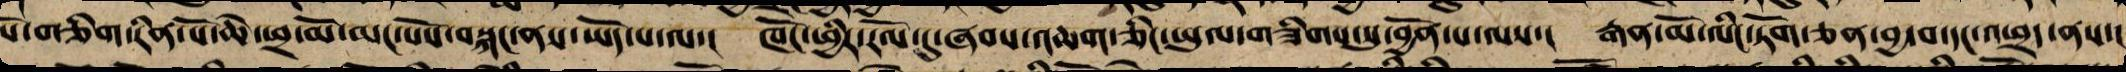པོ་གཅིག་རིན་པོ་ཆེ་ཕྲ་མོ་མང་པོས་བསྐང་ནས་ཡོད་པ་ལ་། ཁོང་ཕྱི་རོལ་དུ་ཞབས་འཆག་ཅིང་ཡུལ་གཟིགས་སུ་བྱོན་པ་ལས་། རྒན་མོ་ལིང་ཏོག་ཅན་བྱ་བ་དང་འཕྲད་ནས་།
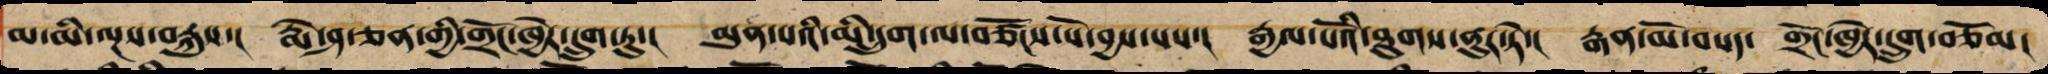མ་མི་ལྔས་བརྐུས་། སྨེ་ཤ་ཅན་གྱི་གྲོང་ཁྱེར་དྲུག་ཏུ་། མུན་པའི་མི་དྲུག་ལ་བཙོངས་སོ་བྱས་པས་། རྒྱལ་པོ་ཐུགས་ནུར་ཏེ་། རྒན་མོ་བསད་ གྲོང་ཁྱེར་དྲུག་བཅོམ།
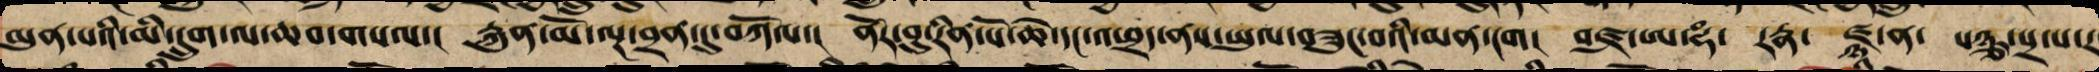མུན་པའི་མི་དྲུག་ལ་ཆབ་གསལ་། རྐུན་མོ་ལྔ་བྲན་དུ་བཀོལ་། ནོར་བུ་རིན་པོ་ཆེ་དང་འཕྲད་ནས་ཡུལ་བཟུང་བའི་མན་ངག། བཛྲ་ཨ་ཧཾ་ རཏྞ་ ཛྙཱ་ན་ པཉྩ་པྲ་པ་ར་
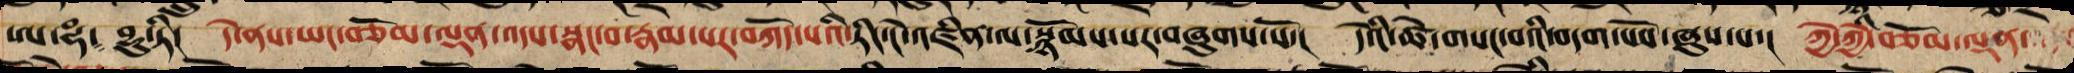ཨ་ཧཾ༴ བྷུ་ཏི། དེ་ནས་ཡང་བཅོམ་ལྡན་འདས་སྣང་བ་རྣམ་པར་བཀོད་པའི་ཏིང་ངེ་འཛིན་ལ་སྙོམས་པར་ཞུགས་སོ་། དེའི་ཚེ་གསང་བའི་བདག་པོས་ཞུས་པ་། ཀྱེ་ཀྱེ་བཅོམ་ལྡན་
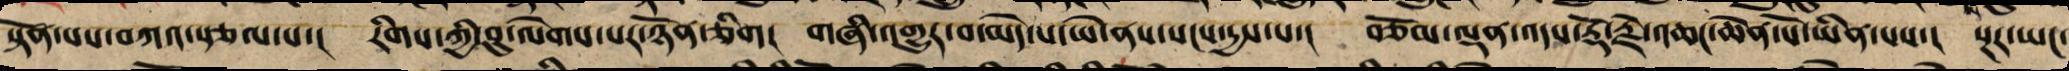སྟོན་པས་བཀའ་སྩལ་པ་། རིགས་ཀྱི་བུ་ལེགས་པར་ཉོན་ཅིག། གཞི་འགྱུར་བ་མེད་པ་ཡེ་ནས་སངས་དྱས་པ་། བཅོམ་ལྡན་འདས་རྡོ་རྗེ་འཆང་ཆེན་པོ་ཡིན་པས་། སྔར་ཡང་
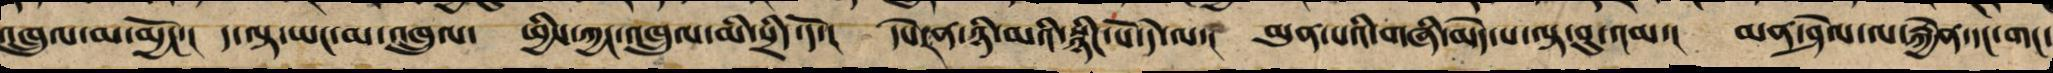འཁྲུལ་མ་མྱོང་། ད་ལྟ་ཡང་མ་འཁྲུལ་ ཕྱིས་ཀྱང་འཁྲུལ་མི་སྲིད་དོ་། དཔེར་ན་ཉི་མའི་སྙིང་པོ་དེ་ལ་། མུན་པའི་གཞི་མེད་པ་ལྟ་བུ་འམ་། མན་ཤེལ་ལ་རྐྱེན་དང་གང་
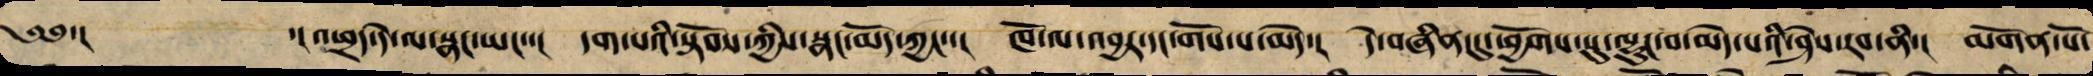༄༅་། ་། འཕྲད་དེ་ལ་སྣང་ཡང་་། དག་པའི་སྟོབས་ཀྱིས་སྣང་མོད་ཀྱང་་། ཁོ་ལ་འབྱར་དང་གོས་པ་མེད་། དེ་བཞིན་དུ་ཕྱོགས་སུ་ལྷུང་བ་མེད་པའི་ཤེས་རབ་ནི་། མགོན་པོ་
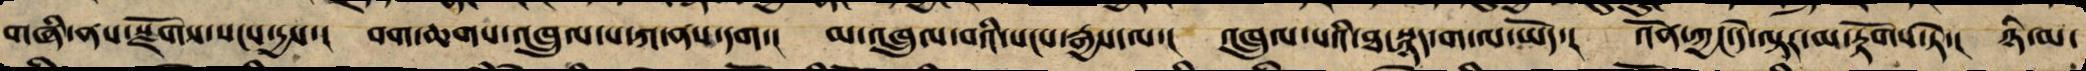གཞི་ནས་སྫོགས་སངས་དྱས་། བག་ཆགས་འཁྲུལ་པ་ཀ་ནས་དག། མ་འཁྲུལ་བའི་སངས་རྒྱས་ལ་། འཁྲུལ་པའི་ཐ་སྙད་ག་ལ་ཡོད་། འོན་ཀྱང་དེ་ལྟར་མ་རྟོགས་ཏེ་། ཉི་མ་
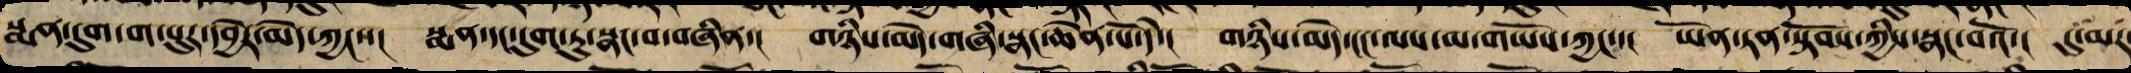སྨན་དུག་ག་བུར་དབྱེར་མེད་ཀྱང་་། སྨན་དང་དུག་ཏུ་སྣང་བ་བཞིན་། གཉིས་མེད་གཞི་སྣང་ཆེན་པོ་དེ་། གཉིས་མེད་ངང་ལས་མ་གཡོས་ཀྱང་་། ཡོན་ཏན་སྟོབས་ཀྱིས་སྣང་བའོ་། དུ་མར
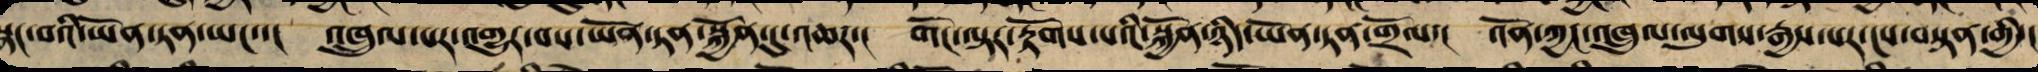སྣང་བའི་ཡོན་ཏན་ལ་། འཁྲུལ་པར་འགྱུར་བས་ཡོན་ཏན་སྐྱོན་དུ་འཆར་། གོང་ལྟར་རྟོགས་པས་སྐྱོན་ཉིད་ཡོན་ཏན་གྲོལ་། འོན་ཀྱང་འཁྲུལ་ལུགས་རྒྱས་པར་ངས་བསྟན་གྱི་།
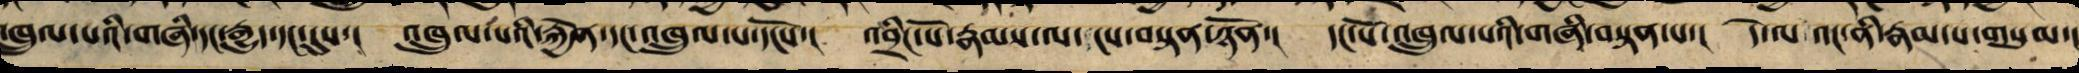འཁྲུལ་པའི་གཞི་དང་རྒྱུད་དང་དུས་། འཁྲུལ་པའི་རྐྱེན་དང་འཁྲུལ་པ་དངོས་། འབྲིང་པོ་རྣམས་ལ་ངས་བསྟན་ཉོན་། དང་པོ་འཁྲུལ་པའི་གཞི་བསྟན་པ་། དེ་ལ འང་ནི་རྣམ་པ་གསུམ་།
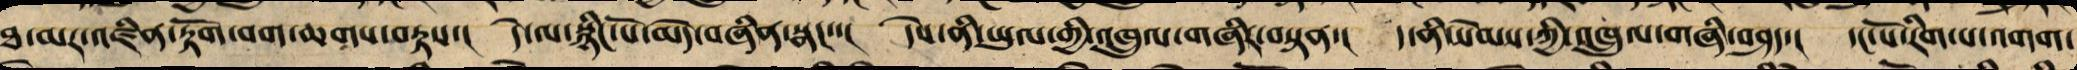ཐ་མར་འཛིན་རྟོག་བག་ཆགས་བརྟས་། དེ་ལ་སྙིང་པོ་མེད་བཞིན་སྣང་་། དེས་ནི་ཡུལ་གྱི་འཁྲུལ་གཞིར་བསྟན་། ད་ནི་སེམས་ཀྱི་འཁྲུལ་གཞི་བཤད་། དང་པོ་རིག་པ་འགག་
